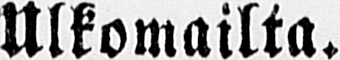Ulkomailta.
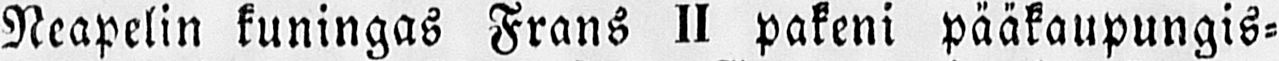Neapelin kuningas Frans II pakeni pääkaupungis-
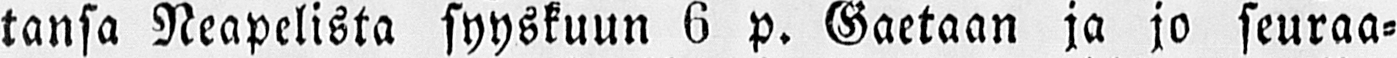tansa Neapelista syyskuun 6 p. Gaetaan ja jo seuraa-
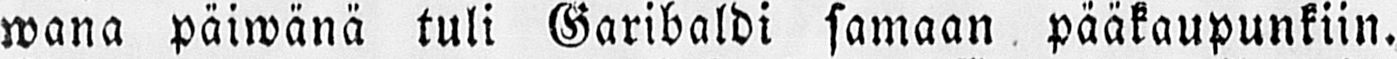wana päiwänä tuli Garibaldi samaan pääkaupunkiin.
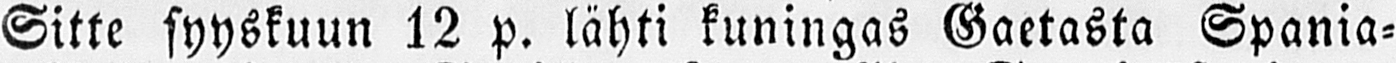Sitte syyskuun 12 p. lähti kuningas Gaetasta Spania-
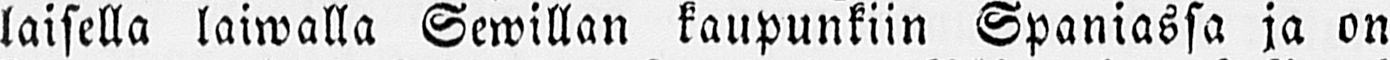laisella laiwalla Sewillan kaupunkiin Spaniassa ja on
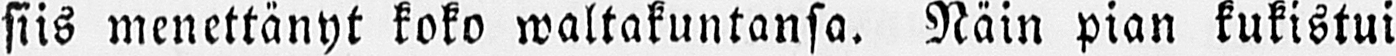siis menettänyt koko waltakuntansa. Näin pian kukistui
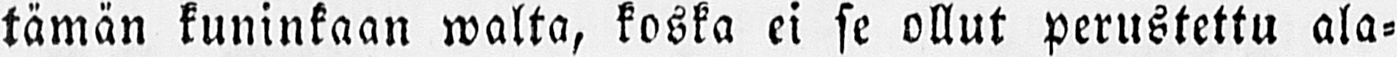tämän kuninkaan walta, koska ei se ollut perustettu ala-
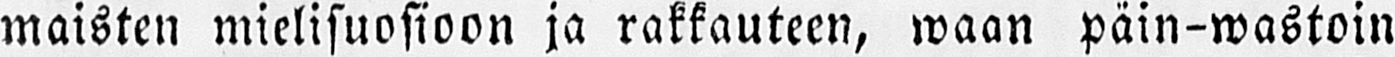maisten mielisuosioon ja rakkauteen, waan päin-wastoin
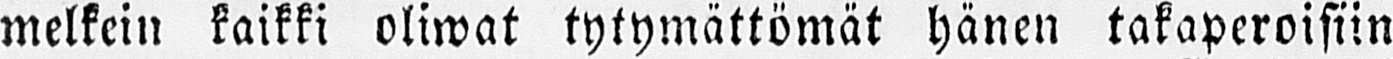melkein kaikki oliwat tytymättömät hänen takaperoisiin
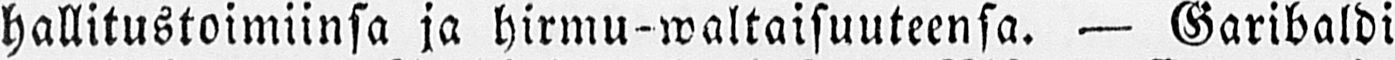hallitustoimiinsa ja hirmu-waltaisuuteensa. — Garibaldi
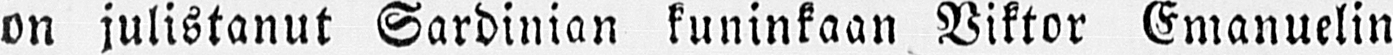on julistanut Sardinian kuninkaan Viktor Emanuelin
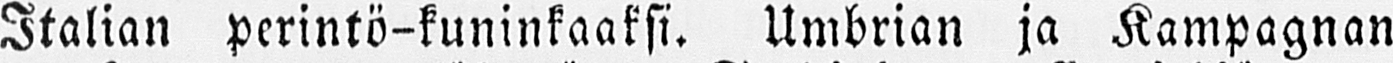Italian perintö-kuninkaaksi. Umbrian ja Kampagnan
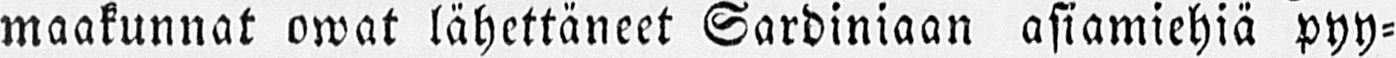maakunnat owat lähettäneet Sardiniaan asiamiehiä pyy-
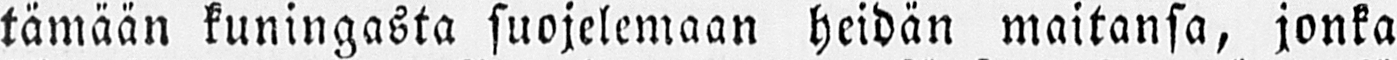tämään kuningasta suojelemaan heidän maitansa, jonka
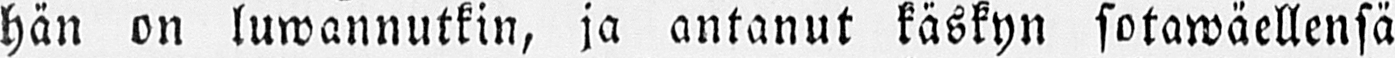hän on luwannutkin, ja antanut käskyn sotawäellensä
